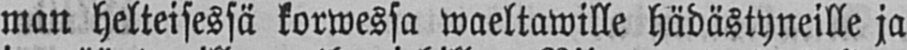man helteisessä korwessa waeltawille hädästyneille ja
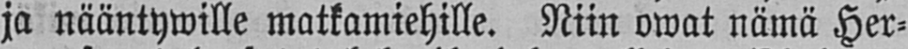ja nääntywille matkamiehille. Niin owat nämä Her-
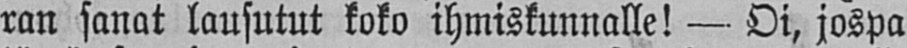ran sanat lausutut koko ihmiskunnalle! — Oi, jospa
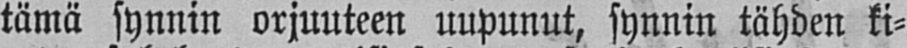tämä synnin orjuuteen uupunut, synnin tähden ki-
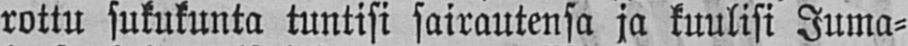rottu sukukunta tuntisi sairautensa ja kuulisi Juma-
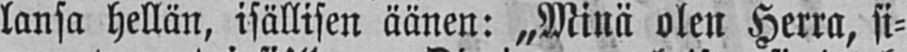lansa hellän, isällisen äänen: „Minä olen Herra, si-
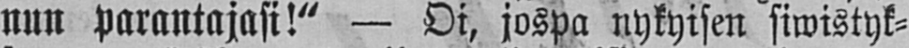nun parantajasi!" — Oi, jospa nykyisen siwistyk-
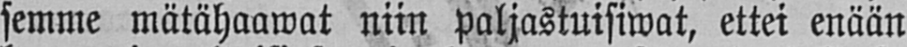semme mätähaawat niin paljastuisiwat, ettei enään
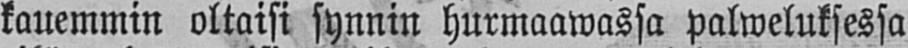kauemmin oltaisi synnin hurmaawassa palweluksessa
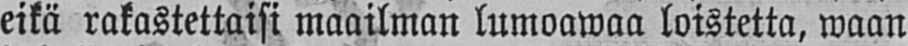eikä rakastettaisi maailman lumoawaa loistetta, waan
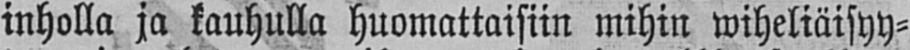inholla ja kauhulla huomattaisiin mihin wiheliäisyy-
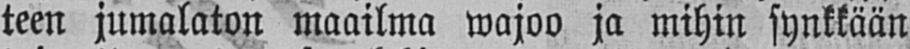teen jumalaton maailma wajoo ja mihin synkkään
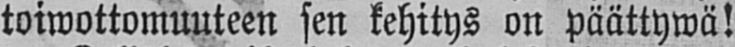toiwottomuuteen sen kehitys on päättywä!
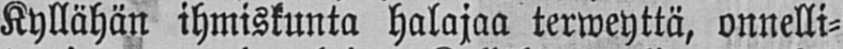Kyllähän ihmiskunta halajaa terweyttä, onnelli-
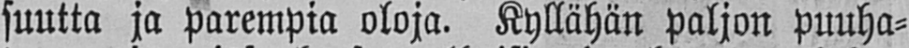suutta ja parempia oloja. Kyllähän paljon puuha-
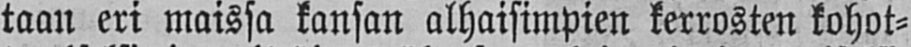taan eri maissa kansan alhaisimpien kerrosten kohot-
